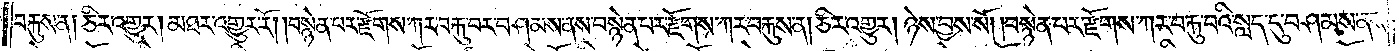བརྐུས་ན། ཅིར་འགྱུར། མཐར་འགྱུར་རོ། །བསྙེན་པར་རྫོགས་ཀར་བརྐུ་བར་བཤམས་ནས་བསྙེན་པར་རྫོགས་ཀར་བརྐུས་ན། ཅིར་འགྱུར། ཉེས་བྱས་སོ། །བསྙེན་པར་རྫོགས་ཀར་བརྐུ་བའི་སླད་དུ་བཤམས་ནས་
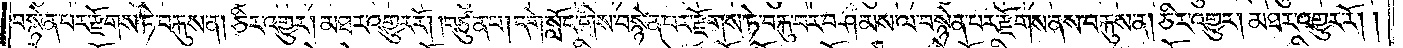བསྙེན་པར་རྫོགས་ཏེ་བརྐུས་ན། ཅིར་འགྱུར། མཐར་འགྱུར་རོ། །བཙུན་པ། དགེ་སློང་གིས་བསྙེན་པར་རྫོགས་ཏེ་བརྐུ་བར་བཤམས་ལ་བསྙེན་པར་རྫོགས་ནས་བརྐུས་ན། ཅིར་འགྱུར། མཐར་འགྱུར་རོ། །
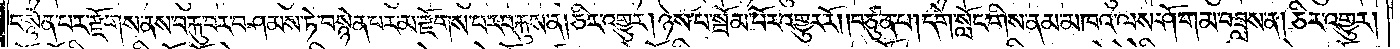བསྙེན་པར་རྫོགས་ནས་བརྐུ་བར་བཤམས་ཏེ་བསྙེན་པར་མ་རྫོགས་པར་བརྐུས་ན། ཅིར་འགྱུར། ཉེས་པ་སྦོམ་པོར་འགྱུར་རོ། །བཙུན་པ། དགེ་སློང་གིས་ནམ་མཁའ་ལས་ཤོ་གམ་བཟླས་ན། ཅིར་འགྱུར།
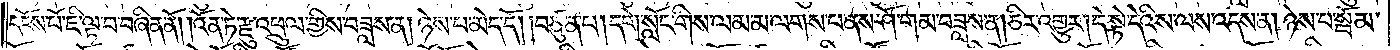དངོས་པོ་ཇི་ལྟ་བ་བཞིན་ནོ། །འོན་ཏེ་རྫུ་འཕྲུལ་གྱིས་བཟླས་ན། ཉེས་པ་མེད་དོ། །བཙུན་པ། དགེ་སློང་གིས་ལམ་མ་ལགས་པ་ནས་ཤོ་གམ་བཟླས་ན། ཅིར་འགྱུར། དེ་སྟེ་དེའི་ས་ལས་འདས་ན། ཉེས་པ་སྦོམ་
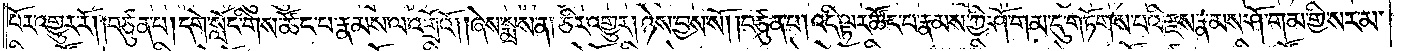པོར་འགྱུར་རོ། །བཙུན་པ། དགེ་སློང་གིས་ཚོང་པ་རྣམས་ལ་འགྲོའོ། །ཞེས་སྨྲས་ན། ཅིར་འགྱུར། །ཉེས་བྱས་སོ། །བཙུན་པ། འདི་ལྟར་ཚོང་པ་རྣམས་ཀྱི་ཤོ་གམ་དུ་གཏོགས་པའི་རྫས་རྣམས་ཤོ་གམ་གྱི་སར་མ་
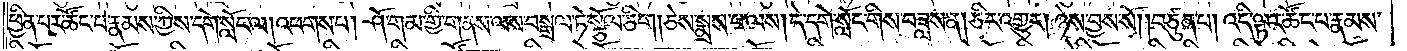ཕྱིན་པར་ཚོང་པ་རྣམས་ཀྱིས་དགེ་སློང་ལ། འཕགས་པ། ཤོ་གམ་གྱི་གནས་ལས་བསྒྲལ་ཏེ་སྩོལ་ཅིག །ཅེས་སྨྲས་པ་ལས། དེ་དགེ་སློང་གིས་བཟླས་ན། ཅིར་འགྱུར། ཉེས་བྱས་སོ། །བཙུན་པ། འདི་ལྟར་ཚོང་པ་རྣམས་
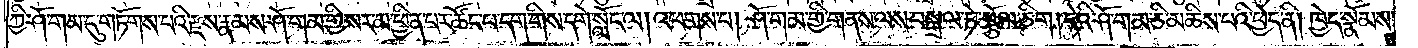ཀྱི་ཤོ་གམ་དུ་གཏོགས་པའི་རྫས་རྣམས་ཤོ་གམ་གྱི་སར་མ་ཕྱིན་པར་ཚོང་པ་དག་གིས་དགེ་སློང་ལ། འཕགས་པ། ཤོ་གམ་གྱི་གནས་ལས་བསྒྲལ་ཏེ་སྩོལ་ཅིག། དེའི་ཤོ་གམ་ཅི་མཆིས་པའི་ཕྱེད་ནི། ཁྱེད་སྣོམས་
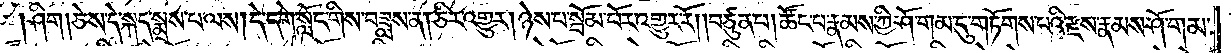།ཤིག །ཅེས་དེ་སྐད་སྨྲས་པ་ལས། དེ་དགེ་སློང་གིས་བཟླས་ན། ཅིར་འགྱུར། ཉེས་པ་སྦོམ་པོར་འགྱུར་རོ། །བཙུན་པ། ཚོང་པ་རྣམས་ཀྱི་ཤོ་གམ་དུ་གཏོགས་པའི་རྫས་རྣམས་ཤོ་གམ་
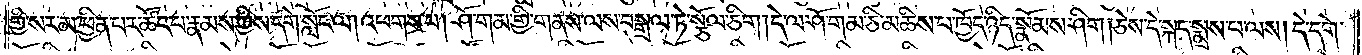གྱི་སར་མ་ཕྱིན་པར་ཚོང་པ་རྣམས་ཀྱིས་དགེ་སློང་ལ། འཕགས་པ། ཤོ་གམ་གྱི་གནས་ལས་བསྒྲལ་ཏེ་སྩོལ་ཅིག །དེ་ལ་ཤོ་གམ་ཅི་མཆིས་པ་ཁྱོད་ཉིད་སྣོམས་ཤིག །ཅེས་དེ་སྐད་སྨྲས་པ་ལས། དེ་དགེ་
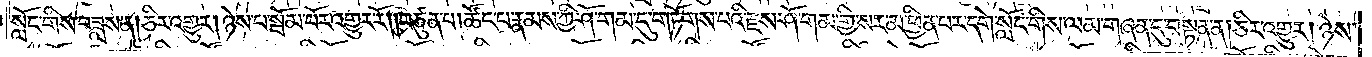སློང་གིས་བཟླས་ན། ཅིར་འགྱུར། ཉེས་པ་སྦོམ་པོར་འགྱུར་རོ། །བཙུན་པ། ཚོང་པ་རྣམས་ཀྱི་ཤོ་གམ་དུ་གཏོགས་པའི་རྫས་ཤོ་གམ་གྱི་སར་མ་ཕྱིན་པར་དགེ་སློང་གིས་ལམ་གཞན་དུ་བསྟན་ན། ཅིར་འགྱུར། ཉེས་
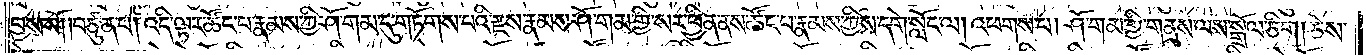བྱས་སོ། །བཙུན་པ། འདི་ལྟར་ཚོང་པ་རྣམས་ཀྱི་ཤོ་གམ་དུ་གཏོགས་པའི་རྫས་རྣམས་ཤོ་གམ་གྱི་སར་ཕྱིན་ནས་ཚོང་པ་རྣམས་ཀྱིས་དགེ་སློང་ལ། འཕགས་པ། ཤོ་གམ་གྱི་གནས་ལས་སྒྲོལ་ཅིག །ཅེས་
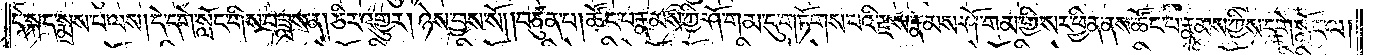དེ་སྐད་སྨྲས་པ་ལས། དེ་དགེ་སློང་གིས་བཟླས་ན། ཅིར་འགྱུར། ཉེས་བྱས་སོ། །བཙུན་པ། ཚོང་པ་རྣམས་ཀྱི་ཤོ་གམ་དུ་གཏོགས་པའི་རྫས་རྣམས་ཤོ་གམ་གྱི་སར་ཕྱིན་ནས་ཚོང་པ་རྣམས་ཀྱིས་དགེ་སློང་ལ།
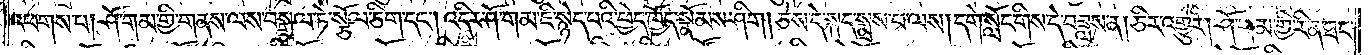འཕགས་པ། ཤོ་གམ་གྱི་གནས་ལས་བསྒྲལ་ཏེ་སྩོལ་ཅིག་དང༌། འདིར་ཤོ་གམ་ཇི་སྙེད་པའི་ཕྱེད་ཁྱོད་སྣོམས་ཤིག །ཅེས་དེ་སྐད་སྨྲས་པ་ལས། དགེ་སློང་གིས་དེ་བཟླས་ན། ཅིར་འགྱུར། ཤོ་གམ་གྱི་རིན་ཐང་
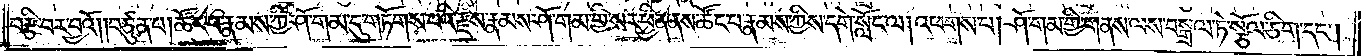བརྩི་བར་བྱའོ། །བཙུན་པ། ཚོང་པ་རྣམས་ཀྱི་ཤོ་གམ་དུ་གཏོགས་པའི་རྫས་རྣམས་ཤོ་གམ་གྱི་སར་ཕྱིན་ནས་ཚོང་པ་རྣམས་ཀྱིས་དགེ་སློང་ལ། འཕགས་པ། ཤོ་གམ་གྱི་གནས་ལས་བསྒྲལ་ཏེ་སྩོལ་ཅིག་དང༌།
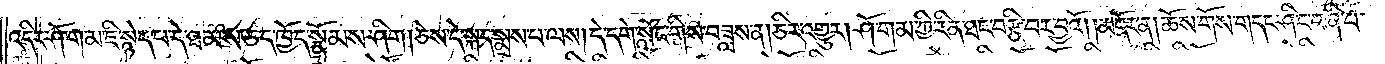འདིར་ཤོ་གམ་ཇི་སྙེད་པ་དེ་ཐམས་ཅད་ཁྱོད་སྣོམས་ཤིག །ཅེས་དེ་སྐད་སྨྲས་པ་ལས། དེ་དགེ་སློང་གིས་བཟླས་ན། ཅིར་འགྱུར། ཤོ་གམ་གྱི་རིན་ཐང་བརྩི་བར་བྱའོ། །མདོར་ན། ཆོས་གོས་གདང་ཤིང་བཞི་པ་
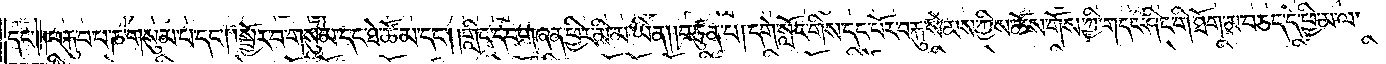དང༌། །བརྐུ་བ་པ་ཎ་གསུམ་པ་དང༌། །སྦྱོར་བ་གསུམ་དང་ཐེ་ཚོམ་དང༌། །གླིང་དང་གཞན་ཕྱིར་མི་མ་ཡིན། །བཙུན་པ། དགེ་སློང་གིས་དང་པོར་བརྐུ་སེམས་ཀྱིས་ཆོས་གོས་ཀྱི་གདང་ཤིང་གི་ཐོག་མ་བཅད་དེ་ཕྱི་མ་ལ་
